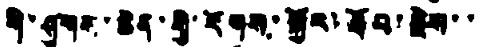གི་ཤུགས་ཆེན་གྱི་རོགས་སྐྱོར་ཐོབ་རྗེས་་
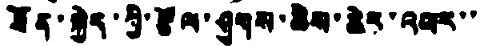ཐོན་སྐྱེད་ཀྱི་རྩོལ་ཤུགས་ཆེས་ཆེར་འཕར་་
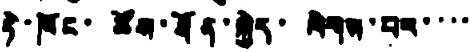ཏེ་ཁོང་ཚོས་ཐོན་སྐྱེད་ལེགས་པར་་་་
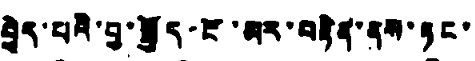བྱེད་པའི་བྱ་སྤྱོད་ངོ་མར་བརྟེན་ནས་ཏང་
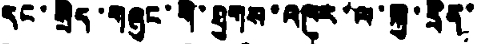དང་སྲིད་གཞུང་གི་ཐུགས་འཁུར་ལ་སྐྱ་དྲིན་
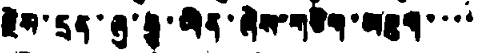རྗེས་དྲན་ཞུ་རྒྱུ་ཡིན་ཞེས་གཅིག་མཇུག་་་་
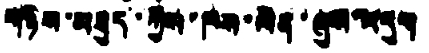གཉིས་མཐུད་ཀྱིས་ཁས་ལེན་ཞུས་འདུག
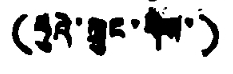(ཧུའེ་ཀྲུང་གིས་)
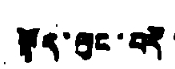སྟོད་ལུང་བདེ་
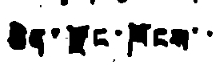ཆེན་རྫོང་ཁོངས་་
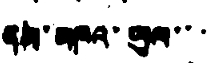ནམ་མཁའ་ཡུལ་་་
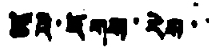ཚོའི་རོགས་རེས་་
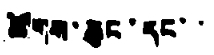ཚོགས་ཆུང་དང་་
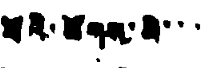པོའི་ཚོགས་མི་་་
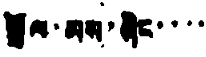སྒྲོལ་མས་ཞིང་་་་
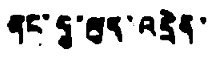ནང་དུ་ལུད་འདྲེན་
